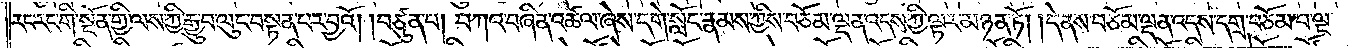རང་རང་གི་སྔོན་གྱི་ལས་ཀྱི་རྒྱུ་བ་ལུང་བསྟན་པར་བྱའོ། །བཙུན་པ། བཀའ་བཞིན་འཚལ་ཞེས་དགེ་སློང་རྣམས་ཀྱིས་བཅོམ་ལྡན་འདས་ཀྱི་ལྟར་མཉན་ཏོ། །དེ་ནས་བཅོམ་ལྡན་འདས་དགྲ་བཅོམ་པ་ལྔ་
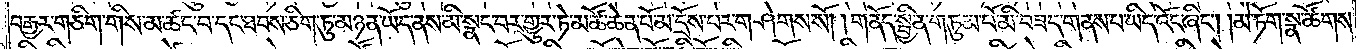བརྒྱར་གཅིག་གིས་མ་ཚང་བ་དང་ཐབས་ཅིག་ཏུ་མཉན་ཡོད་ནས་མི་སྣང་བར་གྱུར་ཏེ་མཚོ་ཆེན་པོ་མ་དྲོས་པར་གཤེགས་སོ། །གནོད་སྦྱིན་གཏུམ་པོ་མི་བཟད་གནས་པ་ཡིད་འོང་ཞིང༌། །མེ་ཏོག་སྣ་ཚོགས་
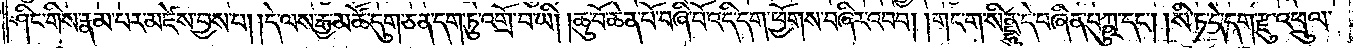ཤིང་གིས་རྣམ་པར་མཛེས་བྱས་པ། །དེ་ལས་རྒྱ་མཚོ་དུག་ཅན་དག་ཏུ་འགྲོ་བ་ཡི། །ཆུ་བོ་ཆེན་པོ་བཞི་པོ་འདི་དག་ཕྱོགས་བཞིར་འབབ། །གང་ག་སིནྡྷུ་དེ་བཞིན་པཀྵུ་དང༌། །སི་ཏ་དེ་དག་རྫུ་འཕྲུལ་
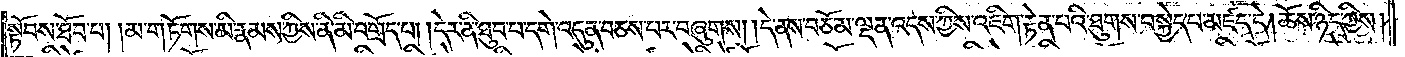སྟོབས་ཐོབ་པ། །མ་གཏོགས་མི་རྣམས་ཀྱིས་ནི་མི་བགྲོད་པ། །དེར་ནི་ཐུབ་པ་དགེ་འདུན་བཅས་པར་བཞུགས། །དེ་ནས་བཅོམ་ལྡན་འདས་ཀྱིས་འཇིག་རྟེན་པའི་ཐུགས་བསྐྱེད་པ་མཛད་དེ། ཆོས་ཉིད་ཀྱིས།
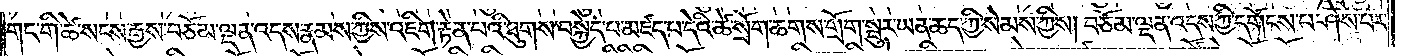གང་གི་ཚེ་སངས་རྒྱས་བཅོམ་ལྡན་འདས་རྣམས་ཀྱིས་འཇིག་རྟེན་པའི་ཐུགས་བསྐྱེད་པ་མཛད་པ་དེའི་ཚེ་སྲོག་ཆགས་གྲོག་སྦུར་ཡན་ཆད་ཀྱི་སེམས་ཀྱིས། བཅོམ་ལྡན་འདས་ཀྱི་དགོངས་པ་ཤེས་པར་
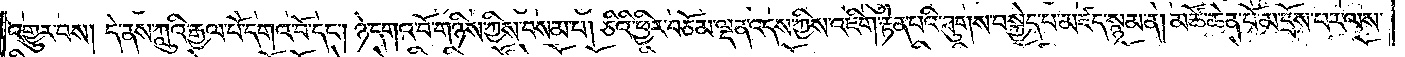འགྱུར་བས། དེ་ནས་ཀླུའི་རྒྱལ་པོ་དགའ་བོ་དང༌། ཉེ་དགའ་བོ་གཉིས་ཀྱིས་བསམ་པ། ཅིའི་ཕྱིར་བཅོམ་ལྡན་འདས་ཀྱིས་འཇིག་རྟེན་པའི་ཐུགས་བསྐྱེད་པ་མཛད་སྙམ་ན། མཚོ་ཆེན་པོ་མ་དྲོས་པར་ལས་
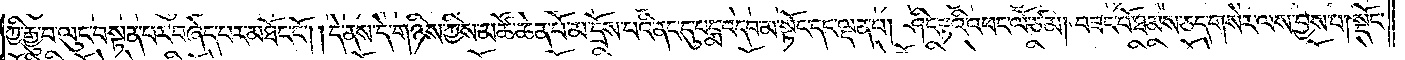ཀྱི་རྒྱུ་བ་ལུང་བསྟན་པར་བཞེད་པར་མཐོང་ངོ༌། །དེ་ནས་དེ་གཉིས་ཀྱིས་མཚོ་ཆེན་པོ་མ་དྲོས་པའི་ནང་དུ་པདྨ་འདབ་མ་སྟོང་དང་ལྡན་པ། ཤིང་རྟའི་འཕང་ལོ་ཙམ། བཟང་པོ་ཐམས་ཅད་གསེར་ལས་བྱས་པ། སྡོང་
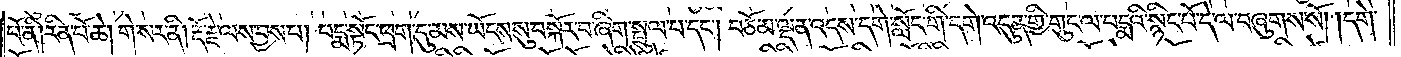པོ་ནི། རིན་པོ་ཆེ། གེ་སར་ནི། རྡོ་རྗེ་ལས་བྱས་པ། པདྨ་སྟོང་ཕྲག་དུ་མས་ཡོངས་སུ་བསྐོར་བ་ཞིག་སྤྲུལ་པ་དང༌། བཅོམ་ལྡན་འདས་དགེ་སློང་གི་དགེ་འདུན་གྱི་གུང་ལ་པདྨའི་སྙིང་པོ་དེ་ལ་བཞུགས་སོ། །དགེ་
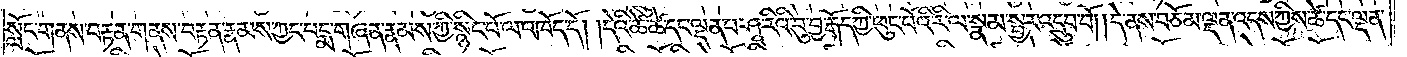སློང་གནས་བརྟན་གནས་བརྟན་རྣམས་ཀྱང་པདྨ་གཞན་རྣམས་ཀྱི་སྙིང་པོ་ལ་འཁོད་དོ། །དེའི་ཚེ་ཚེ་དང་ལྡན་པ་ཤཱ་རིའི་བུ་བྱ་རྒོད་ཀྱི་ཕུང་པོའི་རི་ལ་སྣམ་སྦྱར་འདྲུབ་བོ། །དེ་ནས་བཅོམ་ལྡན་འདས་ཀྱིས་ཚེ་དང་ལྡན་
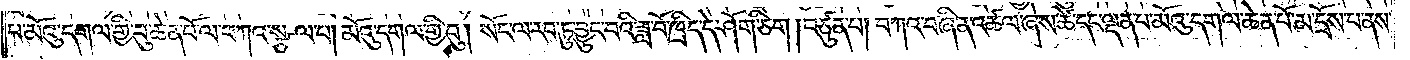པ་མོའུ་དགལ་གྱི་བུ་ཆེན་པོ་ལ་བཀའ་སྩལ་བ། མོའུ་དགལ་གྱི་བུ། སོང་ལ་རབ་ཏུ་བྱུང་བའི་ཟླ་བོ་ཁྲིད་དེ་ཤོག་ཅིག །བཙུན་པ། བཀའ་བཞིན་འཚལ་ཞེས་ཚེ་དང་ལྡན་པ་མོའུ་དགལ་ཆེན་པོ་མ་དྲོས་པ་ནས་
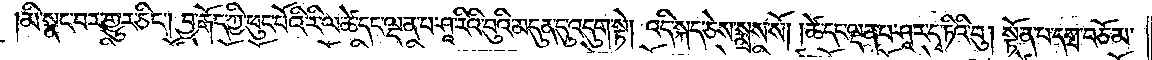།མི་སྣང་བར་གྱུར་ཅིང༌། བྱ་རྒོད་ཀྱི་ཕུང་པོའི་རི་ལ་ཚེ་དང་ལྡན་པ་ཤཱ་རིའི་བུའི་མདུན་དུ་འདུག་སྟེ། འདི་སྐད་ཅེས་སྨྲས་སོ། །ཚེ་དང་ལྡན་པ་ཤཱ་ར་དྭ་ཏིའི་བུ། སྟོན་པ་དགྲ་བཅོམ་
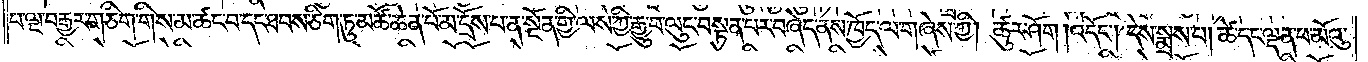པ་ལྔ་བརྒྱར་གཅིག་གིས་མ་ཚང་བ་དང་ཐབས་ཅིག་ཏུ་མཚོ་ཆེན་པོ་མ་དྲོས་པ་ན་སྔོན་གྱི་ལས་ཀྱི་རྒྱུ་བ་ལུང་བསྟན་པར་བཞེད་ནས་ཁྱོད་ལ་གཞེས་ཀྱི། ཚུར་ཤོག །འདོང༌། དེས་སྨྲས་པ། ཚེ་དང་ལྡན་པ་མོའུ་
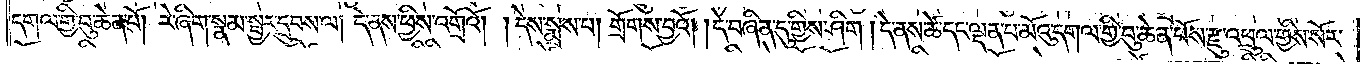དགལ་གྱི་བུ་ཆེན་པོ། རེ་ཞིག་སྣམ་སྦྱར་དྲུབས་ལ། དེ་ནས་ཕྱིས་འགྲོའོ། །དེས་སྨྲས་པ། གྲོགས་བྱའོ། །དེ་བཞིན་དུ་གྱིས་ཤིག །དེ་ནས་ཚེ་དང་ལྡན་པ་མོའུ་དགལ་གྱི་བུ་ཆེན་པོས་རྫུ་འཕྲུལ་གྱིས་སོར་
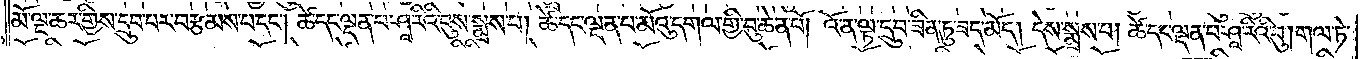མོ་ལྔ་ཆར་གྱིས་དྲུབ་པར་བརྩམས་པ་དང༌། ཚེ་དང་ལྡན་པ་ཤཱ་རིའི་བུས་སྨྲས་པ། ཚེ་དང་ལྡན་པ་མོའུ་དགལ་གྱི་བུ་ཆེན་པོ། འོ་ན་ལྟ་དྲུབ་ཟིན་ཏུ་ཟད་མོ། དེས་སྨྲས་པ། ཚེ་དང་ལྡན་པ་ཤཱ་རིའི་བུ། གལ་ཏེ་
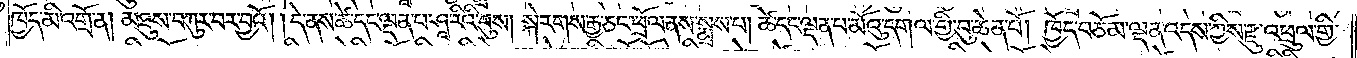ཁྱོད་མི་འགྲོ་ན། མཐུས་བཀུར་བར་བྱའོ། །དེ་ནས་ཚེ་དང་ལྡན་པ་ཤཱ་རིའི་བུས། སྐེ་རགས་རྒྱ་ཅང་ཕྲོལ་ནས་སྨྲས་པ། ཚེ་དང་ལྡན་པ་མོའུ་དགལ་གྱི་བུ་ཆེན་པོ། ཁྱོད་བཅོམ་ལྡན་འདས་ཀྱིས་རྫུ་འཕྲུལ་གྱི་
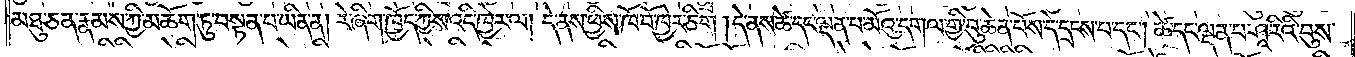མཐུ་ཅན་རྣམས་ཀྱི་མཆོག་ཏུ་བསྟན་པ་ཡིན་ན། རེ་ཞིག་ཁྱོད་ཀྱིས་འདི་ཁྱེར་ལ། དེ་ནས་ཕྱིས་ཁོ་བོ་ཁྱེར་ཅིག །དེ་ནས་ཚེ་དང་ལྡན་པ་མོའུ་དགལ་གྱི་བུ་ཆེན་པོས་དེ་དྲངས་པ་དང༌། ཚེ་དང་ལྡན་པ་ཤཱ་རིའི་བུས་
